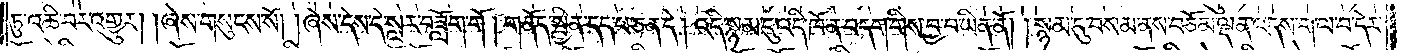ཏུ་འཆི་བར་འགྱུར། །ཞེས་གསུངས་སོ། །ཞེས་དེས་དེ་སླར་བཟློག་གོ། །གནོད་སྦྱིན་དད་པ་ཅན་དེ། འདི་སྙམ་དུ་འདི་ཁོ་ན་བདག་གིས་བྱ་བ་ཡིན་ནོ། །སྙམ་དུ་བསམ་ནས་བཅོམ་ལྡན་འདས་ག་ལ་བ་དེར་
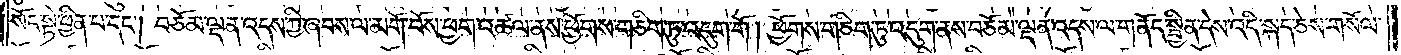སོང་སྟེ་ཕྱིན་པ་དང༌། བཅོམ་ལྡན་འདས་ཀྱི་ཞབས་ལ་མགོ་བོས་ཕྱག་འཚལ་ནས་ཕྱོགས་གཅིག་ཏུ་འདུག་གོ། ཕྱོགས་གཅིག་ཏུ་འདུག་ནས་བཅོམ་ལྡན་འདས་ལ་གནོད་སྦྱིན་དེས་འདི་སྐད་ཅེས་གསོལ་
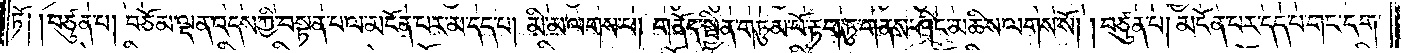ཏོ། །བཙུན་པ། བཅོམ་ལྡན་འདས་ཀྱི་བསྟན་པ་ལ་མངོན་པར་མ་དད་པ། མི་མ་ལགས་པ། གནོད་སྦྱིན་གཏུམ་པོ་རྟག་ཏུ་གནས་ཤིང་མཆིས་ལགས་སོ། །བཙུན་པ། མངོན་པར་དད་པ་གང་དག་
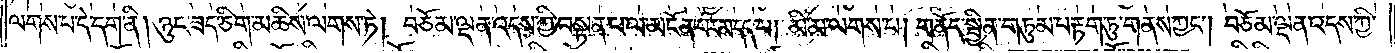ལགས་པ་དེ་དག་ནི། ཉུང་ཟད་ཅིག་མཆིས་ལགས་ཏེ། བཅོམ་ལྡན་འདས་ཀྱི་བསྟན་པ་ལ་མངོན་པར་མ་དད་པ། མི་མ་ལགས་པ། གནོད་སྦྱིན་གཏུམ་པ་རྟག་ཏུ་གནས་ཀྱང༌། བཅོམ་ལྡན་འདས་ཀྱི་
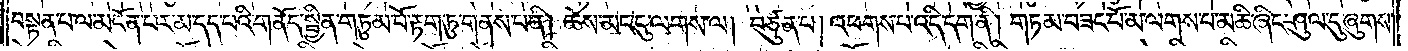བསྟན་པ་ལ་མངོན་པར་མ་དད་པའི་གནོད་སྦྱིན་གཏུམ་པོ་རྟག་ཏུ་གནས་པ་ནི། ཆེས་མང་དུ་ལགས་ལ། བཙུན་པ། འཕགས་པ་འདི་དག་ནི། གཏམ་བཟང་པོ་མ་ལགས་པ་མཆི་ཞིང་ཤུལ་དུ་ཞུགས་
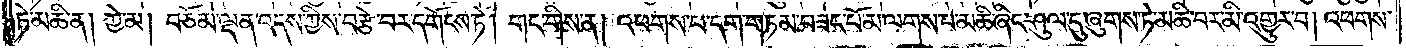ཏེ་མཆི་ན། ཀྱེ་མ། བཅོམ་ལྡན་འདས་ཀྱིས་བརྩེ་བར་དགོངས་ཏེ། གང་གིས་ན། འཕགས་པ་དག་གཏམ་བཟང་པོ་མ་ལགས་པ་མཆི་ཞིང་ཤུལ་དུ་ཞུགས་ཏེ་མཆི་བར་མི་འགྱུར་བ། འཕགས་
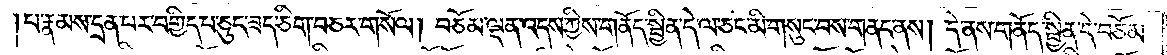པ་རྣམས་དྲན་པར་བགྱིད་པ་ཅུང་ཟད་ཅིག་བཅར་གསོལ། བཅོམ་ལྡན་འདས་ཀྱིས་གནོད་སྦྱིན་དེ་ལ་ཅང་མི་གསུང་བས་གནང་ནས། དེ་ནས་གནོད་སྦྱིན་དེ་བཅོམ་
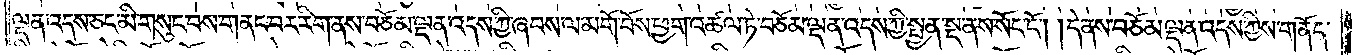ལྡན་འདས་ཅང་མི་གསུང་བས་གནང་བར་རིག་ནས་བཅོམ་ལྡན་འདས་ཀྱི་ཞབས་ལ་མགོ་བོས་ཕྱག་འཚལ་ཏེ་བཅོམ་ལྡན་འདས་ཀྱི་སྤྱན་སྔ་ནས་སོང་ངོ༌། །དེ་ནས་བཅོམ་ལྡན་འདས་ཀྱིས་གནོད་
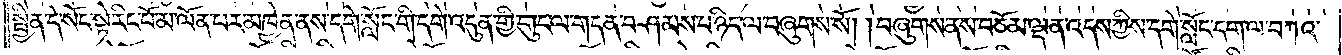སྦྱིན་དེ་སོང་སྟེ་རིང་པོ་མ་ལོན་པར་མཁྱེན་ནས་དགེ་སློང་གི་དགེ་འདུན་གྱི་གུང་ལ་གདན་བཤམས་པ་ཉིད་ལ་བཞུགས་སོ། །བཞུགས་ནས་བཅོམ་ལྡན་འདས་ཀྱིས་དགེ་སློང་དག་ལ་བཀའ་
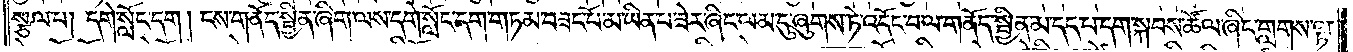སྩལ་པ། དགེ་སློང་དག། ངས་གནོད་སྦྱིན་ཞིག་ལས་དགེ་སློང་དག་གཏམ་བཟང་པོ་མ་ཡིན་པ་ཟེར་ཞིང་ལམ་དུ་ཞུགས་ཏེ་འདོང་བ་ལ་གནོད་སྦྱིན་མ་དད་པ་དག་སྐབས་ཚོལ་ཞིང་གླགས་ལྟ་
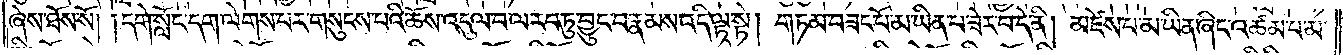ཞེས་ཐོས་སོ། །དགེ་སློང་དག་ལེགས་པར་གསུངས་པའི་ཆོས་འདུལ་བ་ལ་རབ་ཏུ་བྱུང་བ་རྣམས་འདི་ལྟ་སྟེ། གཏམ་བཟང་པོ་མ་ཡིན་པ་ཟེར་བ་དེ་ནི། མཛེས་པ་མ་ཡིན་ཞིང་འཚམ་པ་མ་
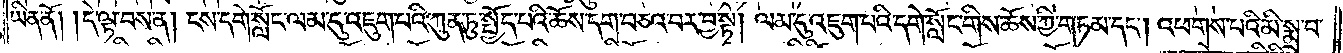ཡིན་ནོ། །དེ་ལྟ་བས་ན། ངས་དགེ་སློང་ལམ་དུ་འཇུག་པའི་ཀུན་ཏུ་སྤྱོད་པའི་ཆོས་དག་བཅའ་བར་བྱ་སྟེ། ལམ་དུ་འཇུག་པའི་དགེ་སློང་གིས་ཆོས་ཀྱི་གཏམ་དང༌། འཕགས་པའི་མི་སྨྲ་བ་
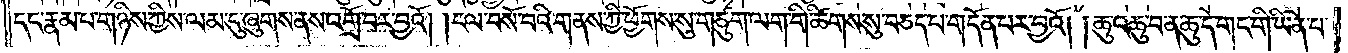དང་རྣམ་པ་གཉིས་ཀྱིས་ལམ་དུ་ཞུགས་ནས་འགྲོ་བར་བྱའོ། །ངལ་བསོ་བའི་གནས་ཀྱི་ཕྱོགས་སུ་གཙུག་ལག་གི་ཚིགས་སུ་བཅད་པ་གདོན་པར་བྱའོ། །ཆུ་འཆུ་བ་ན་ཆུ་དེ་གང་གི་ཡིན་པ་
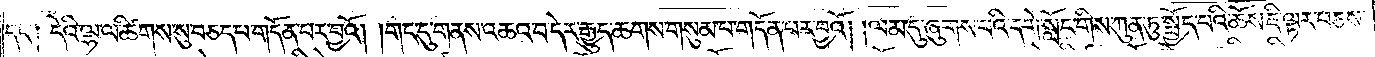དང༌། དེའི་ལྷ་ལ་ཚིགས་སུ་བཅད་པ་གདོན་པར་བྱའོ། །གང་དུ་གནས་འཆའ་བ་དེར་རྒྱུད་ཆགས་གསུམ་པ་གདོན་པར་བྱའོ། །ལམ་དུ་ཞུགས་པའི་དགེ་སློང་གིས་ཀུན་ཏུ་སྤྱོད་པའི་ཆོས་ཇི་ལྟར་བཅས་
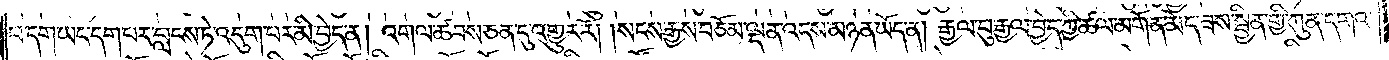པ་དག་ཡང་དག་པར་བླངས་ཏེ་འདུག་པར་མི་བྱེད་ན། འགལ་ཚབས་ཅན་དུ་འགྱུར་རོ། །སངས་རྒྱས་བཅོམ་ལྡན་འདས་མཉན་ཡོད་ན། རྒྱལ་བུ་རྒྱལ་བྱེད་ཀྱི་ཚལ་མགོན་མེད་ཟས་སྦྱིན་གྱི་ཀུན་དགའ་
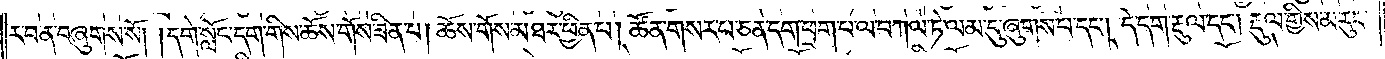ར་བ་ན་བཞུགས་སོ། །དགེ་སློང་དག་གིས་ཆོས་གོས་ཟིན་པ། ཆོས་གོས་མཐར་ཕྱིན་པ། ཚོན་གསར་པ་ཅན་དག་ཕྲག་པ་ལ་བཀལ་ཏེ་ལམ་དུ་ཞུགས་པ་དང༌། དེ་དག་རྡུལ་དང༌། རྡུལ་གྱིས་མ་རུང་
